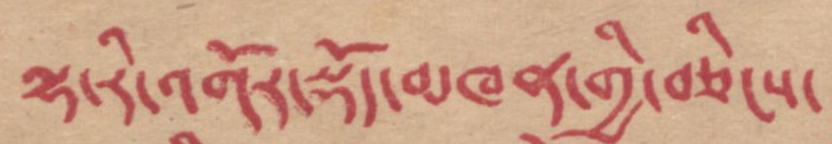ལྷ་རི་འགོར་སྡོད་མཁན་གྱི་བཅིངས་
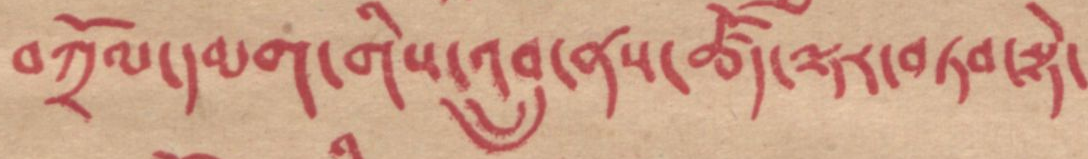བཀྲོལ་དམག་གིས་འབྲུ་ནས་ཚོད་ལྟར་བཏབ་སྟེ་
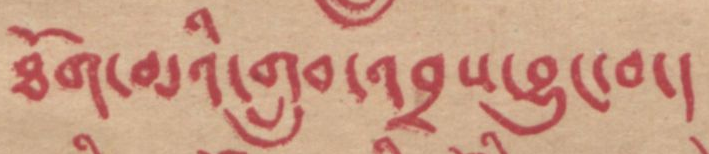ཐོག་མའི་གྲུབ་འབྲས་བྱུང་བ།
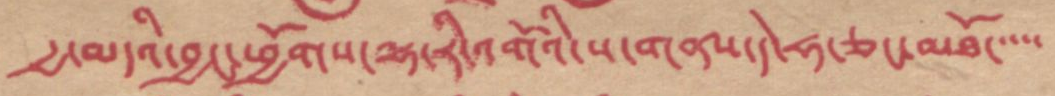རྒྱ་མདའི་བྱང་ཕྱོགས་ལྷ་རི་འགོའི་ས་གནས་དེ་ཧ་ཅང་མཐོ་་་
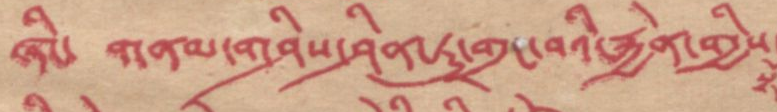ཞིང་ གནམ་གཤིས་ཤིན་ཏུ་གྲང་བའི་རྐྱེན་གྱིས་
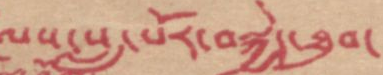ལས་སུ་སླ་པོར་བསྐྱེད་ཐུབ་
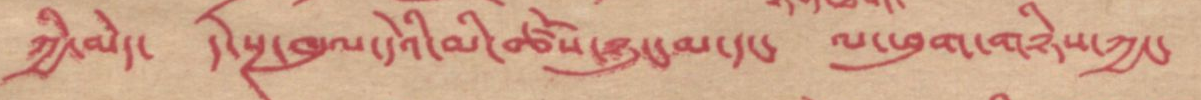ཀྱི་མེད་ དེ་སྔ་ཁུལ་དེའི་མི་ཚོས་ཉུང་མ་དང་ ལ་ཕུག་གཉིས་ཀྱང་
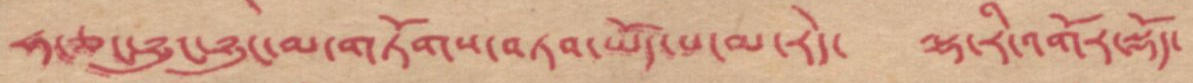ཧ་ཅང་ཉུང་ཉུང་མ་གཏོགས་བཏབ་ཡོད་པ་མ་རེད་ ལྷ་རི་འགོར་སྡོད་
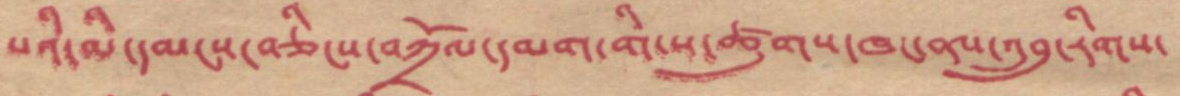པའི་མི་དམངས་བཅིངས་བཀྲོལ་དམག་གི་ས་ཚུགས་ཁང་ནས་འབྲུ་རིགས་
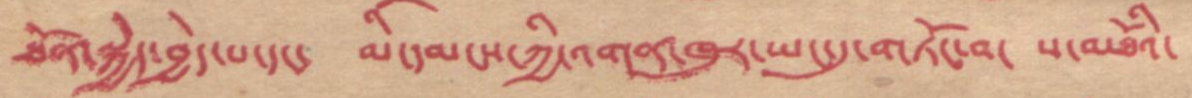ཐོན་སྐྱེད་བྱེད་པ་དང་ མི་དམངས་ཀྱི་འགན་ཁུར་ཡང་དུ་གཏོང་བ་ ས་མཐོའི་
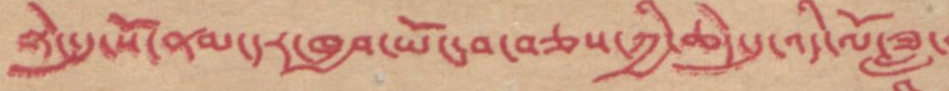སྟེང་དུ་སོ་ནམ་དར་ཁྱབ་ཡོང་བ་བཅས་ཀྱི་ཆེད་དུ་འདི་ལོ་ཟླ་
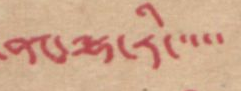ནང་ལྷ་རི་་་་་
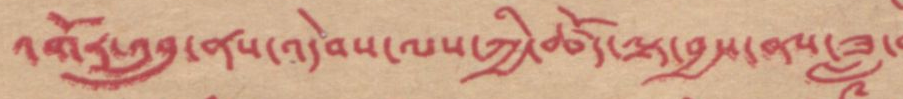འགོར་འབྲུ་ནས་འདེབས་ལས་ཀྱི་ཚོད་ལྟ་བྱས་ནས་ཟླ་
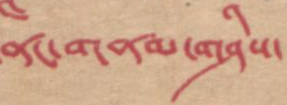ནང་གནམ་གཤིས་
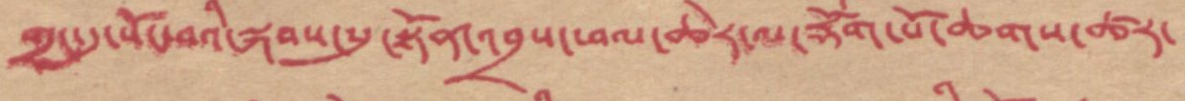གྲང་དུ་སོང་བའི་སྐབས་སུ་སྟོན་འབྲས་ཕལ་ཆེར་ལ་རྡོག་པོ་ཆགས་ཚར་
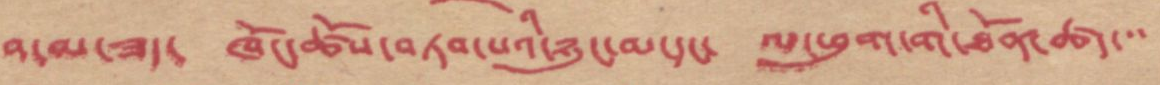བ་མ་ཟད་ ཁོང་ཚོས་བཏབ་པའི་ཉུང་མ་དང་ ལ་ཕུག་གི་ཐོན་ཚད་་
